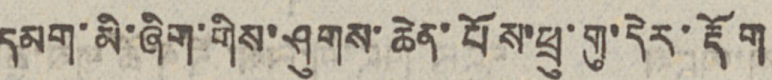དམག་མི་ཞིག་གིས་ཤུགས་ཆེན་པོས་ཕྲུ་གུ་དེར་རྡོག
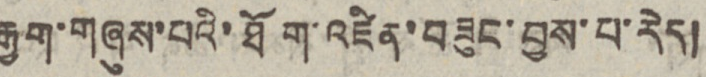རྒྱག་གཞུས་པའི་ཐོག་འཛིན་བཟུང་བྱས་པ་རེད།
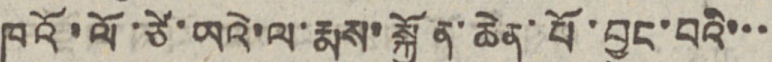ཁོའ་ལོ་ཙེ་ཡའེ་ལ་རྨས་སྐྱོང་ཆེན་པོ་བྱུང་བའི་་་
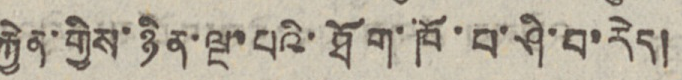རྐྱེན་གྱིས་ཉིན་ལྔ་པའི་ཐོག་ཁོ་བ་ཤི་བ་རེད།
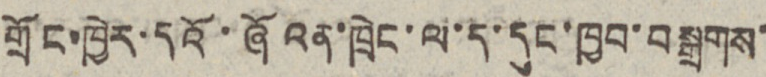གྲོང་ཁྱེར་དའོ་ཞོའན་ཁྲེང་ལ་ད་དུང་ཁྱབ་བསྒྲགས་
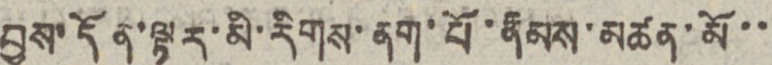བྱས་དོན་ལྟར་མི་རིགས་ནག་པོ་རྣམས་མཚན་མོ་་
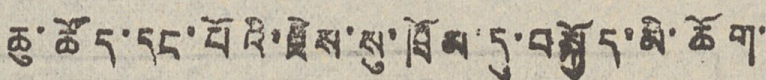ཆུ་ཚོད་དང་པོའི་རྗེས་སུ་ཁྲོམ་དུ་བསྐྱོད་མི་ཆོག་
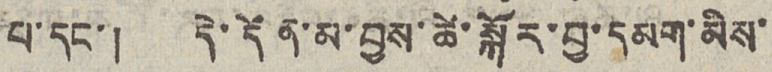པ་དང་། དེ་དོན་མ་བྱས་ཚེ་སྐོར་བྱ་དམག་མིས་
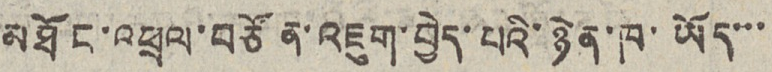མཐོང་འཕྲལ་བཙོན་འཇུག་བྱེད་པའི་ཉེན་ཁ་ཡོད་་་
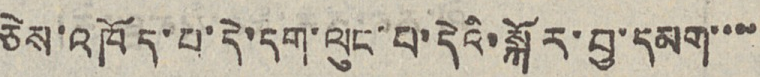ཅེས་འཁོད་པ་དེ་དག་ལུང་པ་དེའི་སྐོར་བྱ་དམག་་་་
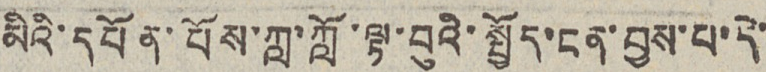མིའི་དཔོན་པོས་ཀླ་ཀློ་ལྟ་བུའི་སྤྱོད་ངན་བྱས་པ་དེ་
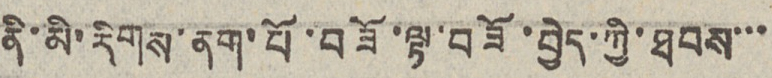ནི་མི་རིགས་ནག་པོ་བཟོ་ལྟ་བཟོ་བྱེད་ཀྱི་ཐབས་་་
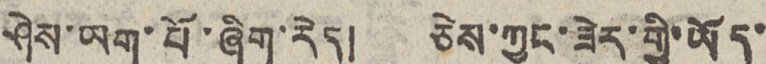ཤིས་ཡག་པོ་ཞིག་རེད། ཅིས་ཀྱང་ཟེར་གྱི་ཡོད་
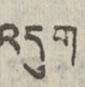འདུག
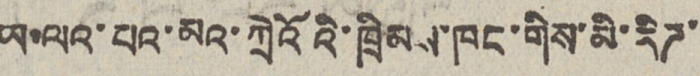ཡ་ལའ་པའ་མའ་ཀྲེའོའི་ཁྲིམས་ཁང་གིས་མི་རིཊ་
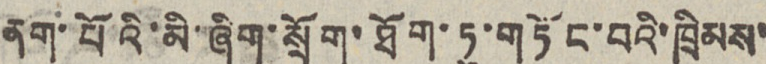ནག་པོའི་མི་ཞིག་སྲོག་ཐོག་ཏུ་གཏོང་བའི་ཁྲིམས་
